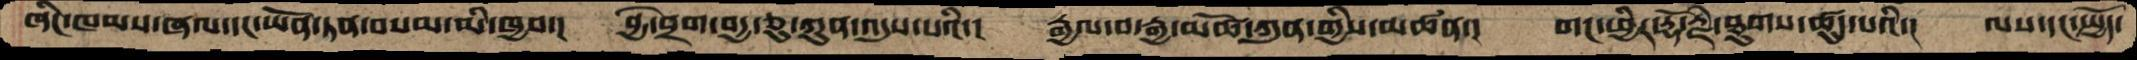ཞིང་ཁམས་ཞལ་དང་ཡོན་ཏན་བསམ་མི་ཁྱབ་།  བྱེ་བྲག་བདྱ་ཅུ་ཀུན་འདུས་པའི་།  རྒྱལ་བ་རྒྱ་མཚོ་ཀུན་གྱིས་མཚན་།   གང་ཕྱིར་རྡོ་རྗེ་ཐུགས་ཚུད་པའི་།  ལས་དང་སྤྱོད་
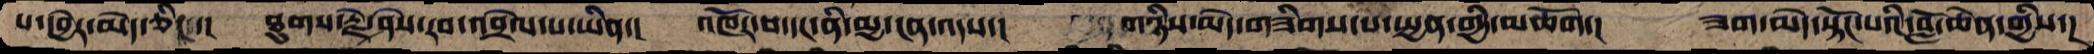པ་དབྱེར་མེད་ཅིང་་།  ཐུགས་རྗེ་ཤེས་རབ་འབྲེལ་པ་ཡིན་།  འཁོར་བ་དང་ནི་མྱ་ངན་འདས་།  གཉིས་མེད་གཟིགས་པ་སྤྱན་གྱི་མཆོག་།  ཟག་མེད་སྟོང་པའི་བློ་ཆེན་གྱིས་།
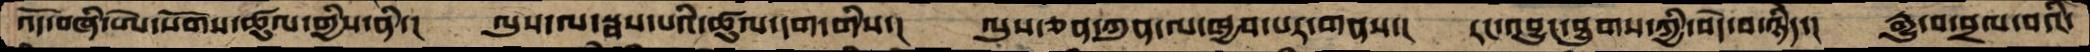འོད་བཞི་ཨེ་སོགས་ཚུལ་གྱིས་ནི་།  ལུས་ལ་སྦས་པའི་ཚུལ་དག་གིས་།  ལུས་ཅན་ཀུན་ལ་ཁྱབ་པར་གནས་།  རང་འབྱུང་ཐུགས་ཀྱི་བདེ་བ་ཉིད་།  རྒྱུ་བ་བྲལ་བའི་
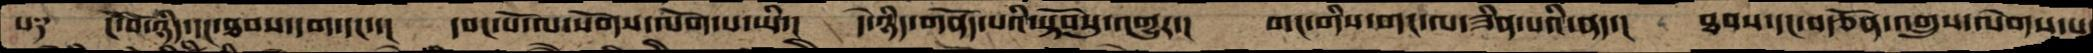པ༑  ངོ་བོ་ཉིད་དང་ཐབས་དག་དང་་།  དབང་པོ་ལ་སོགས་ལོག་པ་ཡི་།   དེ་ཉིད་གནོད་པའི་སྟོབསུ་འགྱུར་།  གང་གིས་གང་ལ་ཟིན་པའི་ནད་།  ཐབས་དང་བརྩོན་འགྲུས་ལེགས་པ
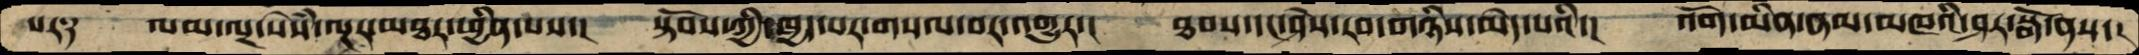པར༑   ལམ་ལྔ་སེཾས་ལྔར་མཐར་ཕྱིན་པས་།   སྟོབས་ཀྱི་ཁྱད་པར་གསལ་བར་འགྱུར་།  ཐབས་དང་ཤེས་རབ་གཉིས་མེད་པའི་།  འོག་མིན་ནམ་མཁའི་ཤར་སྒོ་ནས་།
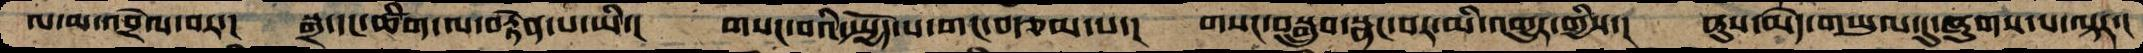ལ་མ་འབྲེལ་བར་།  སྒྲ་དང་ཚིག་ལ་བརྟེན་པ་ཡི་།  གསང་བའི་སྤྱོད་པ་གང་བརྩམ་པ་།  གསང་བསྒྲུབ་སྣང་བར་མི་འགྱུར་གྱིས་།  ནུས་མེད་གཡུལ་དུ་ཞུགས་པ་ལྟར་།
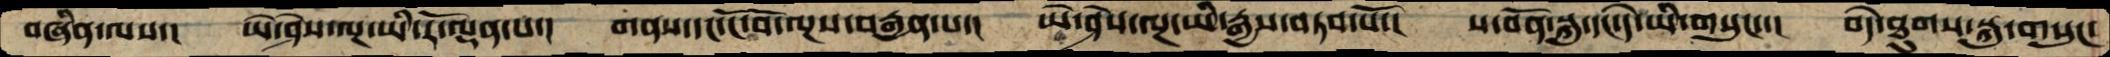བཞིན་ལས་།  ཡེ་ཤེས་ལྔ་ཡི་རོ་ལྡན་པ་།  གནས་དང་ངོ་བོ་ལྔས་བརྒྱན་པ་། ཡེ་ཤེས་ལྔ་ཡི་རྒྱས་བཏབ་པོ་།  ས་བོན་སྐུ་དང་དེ་ཡི་གསུངས་་།  བདེ་ཐུགས་སྐུ་གསུང་
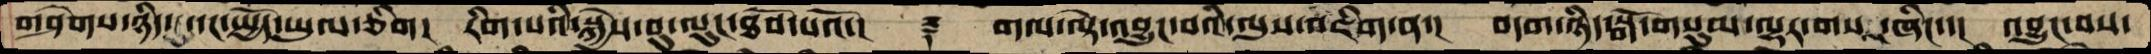གཤེགས་ཉིད་དུ་དང་སྤྱོད་ཡུལ་ཅིག།  རིག་པའི་སྐྱེས་བུ་ལུང་ཐོབ་པའོ་།   ࿑  གལ་ལྟེ་འབྱུང་བའི་ལུས་འཇིག་ན་།  བདག་ཉིད་སྒོ་གསུམ་ལྷར་གསར་ཞིང་་།   འབྱུང་བས་
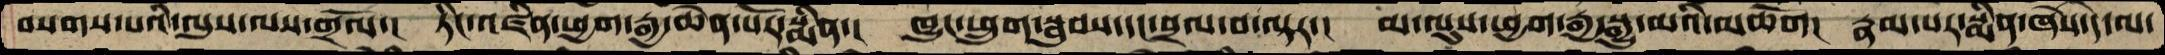བསགས་པའི་ལུས་ལས་གྲོལ་།  ཏིང་འཛིན་ཕྱག་རྒྱ་ཆེན་པོར་སྨིན་།  ཁྱུང་ཕྲུག་སྦུབས་དང་བྲལ་བ་ལྟར་།  མ་ལུས་ཕྱག་རྒྱ་སྒྱུ་མའི་མཆོག།  རྣམ་པར་སྨིན་ཞེས་དེ་ལ་
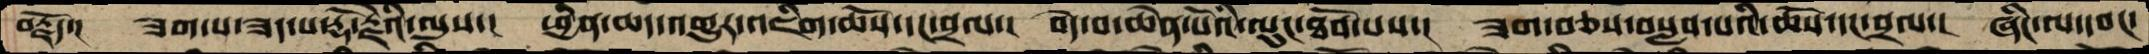བརྗོད་།  ཟག་པ་ཟད་པ་རྡོ་རྗེའི་ལུས་།  ཕྱིན་ཆད་འགྱུར་འཇིག་ཆོས་དང་བྲལ་།  བདེ་བ་ཆེན་པོའི་ལུང་ཐོབ་པས་།  ཟག་བཅས་བསླབ་པའི་ཆོས་དང་བྲལ་།  ཞིང་ལ་དབང་
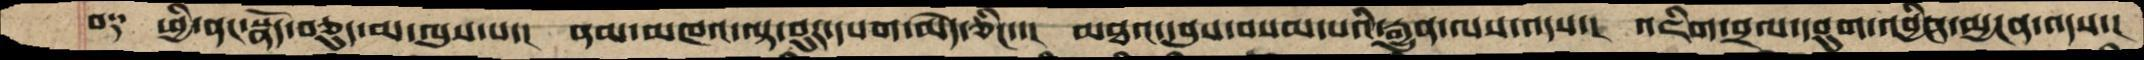བ༑  ཕྱིི་ནང་སྣོད་བཅུད་མ་ལུས་པ་།  ནམ་མཁའ་ལྟ་བུར་དཔག་མེད་ཅིང་་།  མཐའ་དབུས་བསམ་པའི་རྒྱུན་ལས་འདས་།  འཇིག་བྲལ་དབུག་འབྱིན་མྱངན་འདས་།
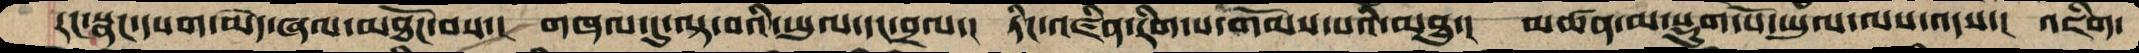རང་སྣང་དཔག་མེད་ཞལ་མཐོང་བས་།  གཞལ་དུ་ལྟ་བའི་ཡུལ་དང་བྲལ་།  ཏིང་འཛིན་རིག་པ་གོམས་པའི་མཐུ་།  མཚན་མ་སྡུག་པོ་ཡུལ་ལས་འདས་།  འཇིག་
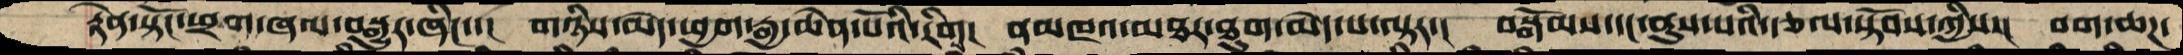རྟེན་སྟོང་ཕྲག་ཞལ་བསྒྱུར་ཞིང་་།  གཉིས་མེད་ཕྱག་རྒྱ་ཆེན་པོའི་རིག་།  ནམཁའ་མཐར་ཐུག་མེད་པ་ལྟར་།  བསྒོམས་དང་ནུས་པའི་རྩལ་སྟོབས་ཀྱིས་། བག་ཆཌ་
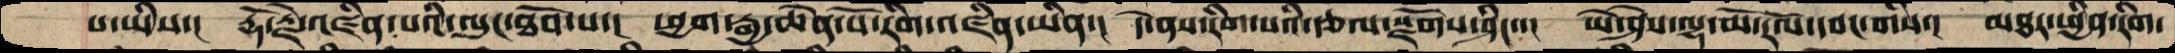པ་ཡིས་།  རྡོ་རྗེ་འཛིན་པའི་ལུང་ཐོབ་པ་།  ཕྱག་རྒྱ་ཆེན་པོ་རིག་འཛིན་ཡིན་།  དེ་ནས་རིག་པའི་རྩལ་སྫོགས་ཤིང་་།  ཡེ་ཤེས་ལྷ་མོ་རོལ་དབང་གིས་།  མཐར་ཕྱིན་རིག་
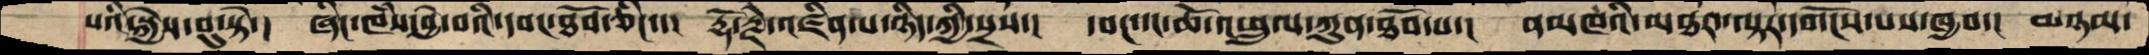པའི་སྐྱེས་བུ་སྟེ་།  ཞིང་ཁཾས་བྱེ་བའི་དབང་ཐོབ་ཅིང་་།  རྡོ་རྗེ་འཛིན་པ་ཉིད་ཀྱི་སྲས་།  དབང་དང་ཆོ་འཕྲུལ་ཀུན་ཐོབ་པ་།  ནམཁའི་མཐར་་ལྟར་དགོངས་པས་ཁྱབ་།  མཉམ་
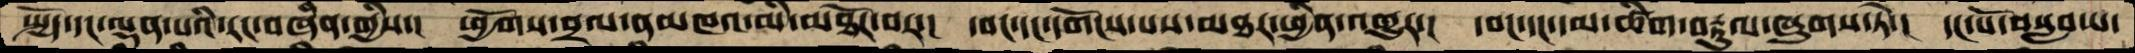སྤྱོད་དང་ལྡན་པའི་རང་བཞིན་གྱིས་།  ཕྱོགས་བྲལ་ནམཁའ་མི་འཐོར་བར་།  དབང་དང་དགོངས་པས་མཐར་ཕྱིན་འགྱུར་།  དབང་དང་དམ་ཚིག་བརྟུལ་ཞུགས་ཏེ་།  དང་པོ་བསླབ་པ་
